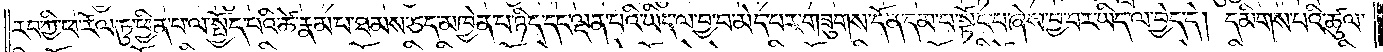རབ་ཀྱི་ཕ་རོལ་ཏུ་ཕྱིན་པ་ལ་སྤྱོད་པའི་ཚེ་རྣམ་པ་ཐམས་ཅད་མཁྱེན་པ་ཉིད་དང་ལྡན་པའི་ཡིད་ལ་བྱ་བ་མེད་པར་གཟུགས་དོན་དམ་པ་སྟོང་པ་ཞེས་བྱ་བར་ཡིད་ལ་བྱེད་དེ། དམིགས་པའི་ཚུལ་
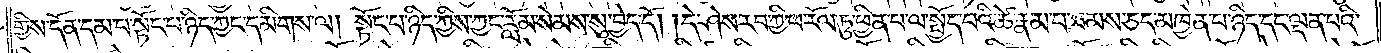གྱིས་དོན་དམ་པ་སྟོང་པ་ཉིད་ཀྱང་དམིགས་ལ། སྟོང་པ་ཉིད་ཀྱིས་ཀྱང་རློམ་སེམས་སུ་བྱེད་དོ། །དེ་ཤེས་རབ་ཀྱི་ཕ་རོལ་ཏུ་ཕྱིན་པ་ལ་སྤྱོད་པའི་ཚེ་རྣམ་པ་ཐམས་ཅད་མཁྱེན་པ་ཉིད་དང་ལྡན་པའི་
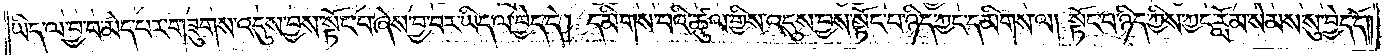ཡིད་ལ་བྱ་བ་མེད་པར་གཟུགས་འདུས་བྱས་སྟོང་པ་ཞེས་བྱ་བར་ཡིད་ལ་བྱེད་དེ། དམིགས་པའི་ཚུལ་གྱིས་འདུས་བྱ་སྟོང་པ་ཉིད་ཀྱང་དམིགས་ལ། སྟོང་པ་ཉིད་ཀྱིས་ཀྱང་རློམ་སེམས་སུ་བྱེད་དོ༎
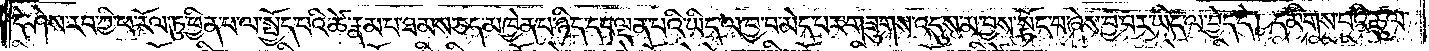དེ་ཤེས་རབ་ཀྱི་ཕ་རོལ་ཏུ་ཕྱིན་པ་ལ་སྤྱོད་པའི་ཚེ་རྣམ་པ་ཐམས་ཅད་མཁྱེན་པ་ཉིད་དང་ལྡན་པའི་ཡིད་ལ་བྱ་བ་མེད་པར་གཟུགས་འདུས་མ་བྱས་སྟོང་པ་ཞེས་བྱ་བར་ཡིད་ལ་བྱེད་དེ། དམིགས་པའི་ཚུལ་
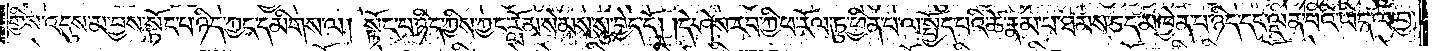གྱིས་འདུས་མ་བྱས་སྟོང་པ་ཉིད་ཀྱང་དམིགས་ལ། སྟོང་པ་ཉིད་ཀྱིས་ཀྱང་རློམ་སེམས་སུ་བྱེད་དོ། །དེ་ཤེས་རབ་ཀྱི་ཕ་རོལ་ཏུ་ཕྱིན་པ་ལ་སྤྱོད་པའི་ཚེ་རྣམ་པ་ཐམས་ཅད་མཁྱེན་པ་ཉིད་དང་ལྡན་པའི་ཡིད་ལ་བྱ་
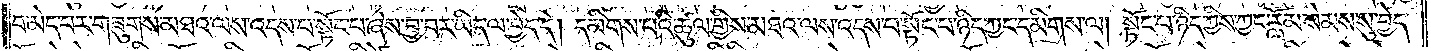བ་མེད་པར་གཟུགས་མཐའ་ལས་འདས་པ་སྟོང་པ་ཞེས་བྱ་བར་ཡིད་ལ་བྱེད་དེ། དམིགས་པའི་ཚུལ་གྱིས་མཐའ་ལས་འདས་པ་སྟོང་པ་ཉིད་ཀྱང་དམིགས་ལ། སྟོང་པ་ཉིད་ཀྱིས་ཀྱང་རློམ་སེམས་སུ་བྱེད་
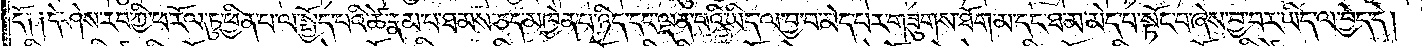དོ༑ ༑དེ་ཤེས་རབ་ཀྱི་ཕ་རོལ་ཏུ་ཕྱིན་པ་ལ་སྤྱོད་པའི་ཚེ་རྣམ་པ་ཐམས་ཅད་མཁྱེན་པ་ཉིད་དང་ལྡན་པའི་ཡིད་ལ་བྱ་བ་མེད་པར་གཟུགས་ཐོག་མ་དང་ཐ་མ་མེད་པ་སྟོང་པ་ཞེས་བྱ་བར་ཡིད་ལ་བྱེད་དེ།
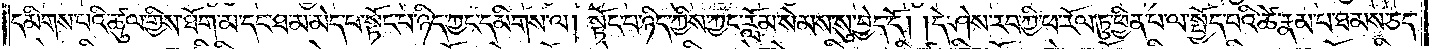དམིགས་པའི་ཚུལ་གྱིས་ཐོག་མ་དང་ཐ་མ་མེད་པ་སྟོང་པ་ཉིད་ཀྱང་དམིགས་ལ། སྟོང་པ་ཉིད་ཀྱིས་ཀྱང་རློམ་སེམས་སུ་བྱེད་དོ། །དེ་ཤེས་རབ་ཀྱི་ཕ་རོལ་ཏུ་ཕྱིན་པ་ལ་སྤྱོད་པའི་ཚེ་རྣམ་པ་ཐམས་ཅད་
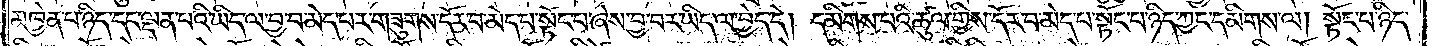མཁྱེན་པ་ཉིད་དང་ལྡན་པའི་ཡིད་ལ་བྱ་བ་མེད་པར་གཟུགས་དོར་བ་མེད་པ་སྟོང་པ་ཞེས་བྱ་བར་ཡིད་ལ་བྱེད་དེ། དམིགས་པའི་ཚུལ་གྱིས་དོར་བ་མེད་པ་སྟོང་པ་ཉིད་ཀྱང་དམིགས་ལ། སྟོང་པ་ཉིད་
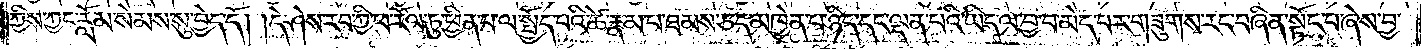ཀྱིས་ཀྱང་རློམ་སེམས་སུ་བྱེད་དོ། །དེ་ཤེས་རབ་ཀྱི་ཕ་རོལ་ཏུ་ཕྱིན་པ་ལ་སྤྱོད་པའི་ཚེ་རྣམ་པ་ཐམས་ཅད་མཁྱེན་པ་ཉིད་དང་ལྡན་པའི་ཡིད་ལ་བྱ་བ་མེད་པར་གཟུགས་རང་བཞིན་སྟོང་པ་ཞེས་བྱ་
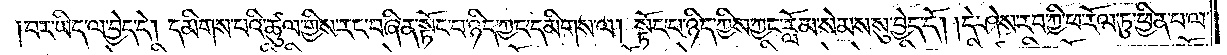པར་ཡིད་ལ་བྱེད་དེ། དམིགས་པའི་ཚུལ་གྱིས་རང་བཞིན་སྟོང་པ་ཉིད་ཀྱང་དམིགས་ལ། སྟོང་པ་ཉིད་ཀྱིས་ཀྱང་རློམ་སེམས་སུ་བྱེད་དོ། །དེ་ཤེས་རབ་ཀྱི་ཕ་རོལ་ཏུ་ཕྱིན་པ་ལ་
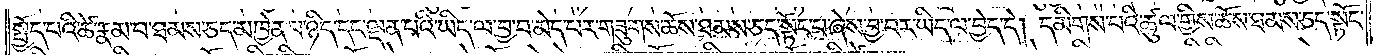སྤྱོད་པའི་ཚེ་རྣམ་པ་ཐམས་ཅད་མཁྱེན་པ་ཉིད་དང་ལྡན་པའི་ཡིད་ལ་བྱ་བ་མེད་པར་གཟུགས་ཆོས་ཐམས་ཅད་སྟོང་པ་ཞེས་བྱ་བར་ཡིད་ལ་བྱེད་དེ། དམིགས་པའི་ཚུལ་གྱིས་ཆོས་ཐམས་ཅད་སྟོང་
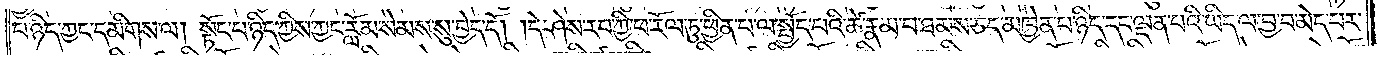པ་ཉིད་ཀྱང་དམིགས་ལ། སྟོང་པ་ཉིད་ཀྱིས་ཀྱང་རློམ་སེམས་སུ་བྱེད་དོ། །དེ་ཤེས་རབ་ཀྱི་ཕ་རོལ་ཏུ་ཕྱིན་པ་ལ་སྤྱོད་པའི་ཚེ་རྣམ་པ་ཐམས་ཅད་མཁྱེན་པ་ཉིད་དང་ལྡན་པའི་ཡིད་ལ་བྱ་བ་མེད་པར་
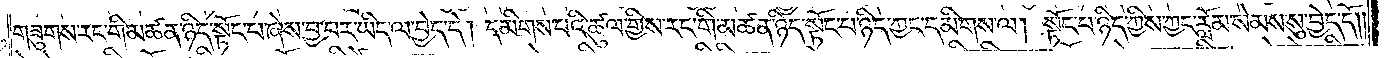གཟུགས་རང་གི་མཚན་ཉིད་སྟོང་པ་ཞེས་བྱ་བར་ཡིད་ལ་བྱེད་དེ། དམིགས་པའི་ཚུལ་གྱིས་རང་གི་མཚན་ཉིད་སྟོང་པ་ཉིད་ཀྱང་དམིགས་ལ། སྟོང་པ་ཉིད་ཀྱིས་ཀྱང་རློམ་སེམས་སུ་བྱེད་དོ༎
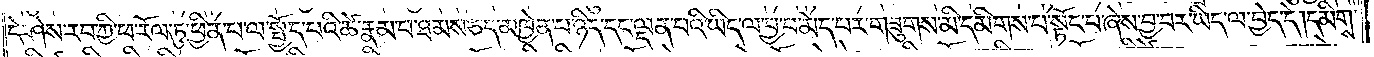དེ་ཤེས་རབ་ཀྱི་ཕ་རོལ་ཏུ་ཕྱིན་པ་ལ་སྤྱོད་པའི་ཚེ་རྣམ་པ་ཐམས་ཅད་མཁྱེན་པ་ཉིད་དང་ལྡན་པའི་ཡིད་ལ་བྱ་བ་མེད་པར་གཟུགས་མི་དམིགས་པ་སྟོང་པ་ཞེས་བྱ་བར་ཡིད་ལ་བྱེད་དེ། དམིགས་
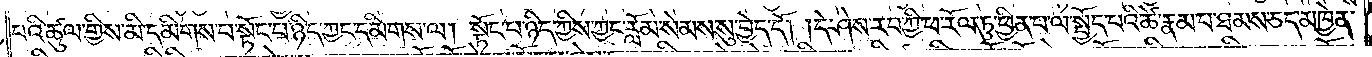པའི་ཚུལ་གྱིས་མི་དམིགས་པ་སྟོང་པ་ཉིད་ཀྱང་དམིགས་ལ། སྟོང་པ་ཉིད་ཀྱིས་ཀྱང་རློམ་སེམས་སུ་བྱེད་དོ། །དེ་ཤེས་རབ་ཀྱི་ཕ་རོལ་ཏུ་ཕྱིན་པ་ལ་སྤྱོད་པའི་ཚེ་རྣམ་པ་ཐམས་ཅད་མཁྱེན་
